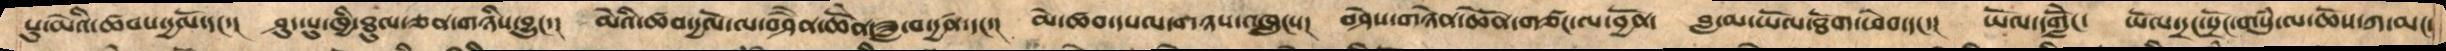པུ་མེའི་ཚབས་དྱལོ་དང་།   ཤུད་པུ་ཁྱི་ཐུལ་ཅན་གཉིས་བྱུང་།  མེའི་ཚབ་དྱལོ་ལ་བཤཻན་ཆེནོ་ཟླ་བ་དྱཚན་དང་།  མེ་ཚབ་དཔལ་གཉས་འཁྲུངས།  བཤེས་གཉེན་ཆེནོ་གཙང་ལ་བྱོན།  བླ་མ་ཡོལ་ཐོག་ཕེབ་དང་།  ཡོལ་དགླེོ།་  ཡོལ་དྲང་སྲོང་གསུཾ་ལ་ཆོས་ཀ་མང་
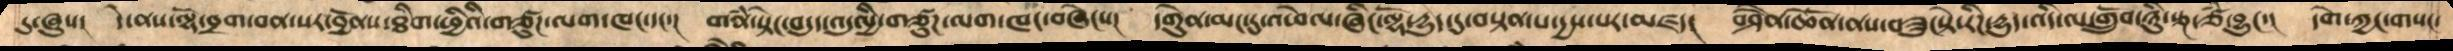དུ་ཞུས།  དེ་ནས་ལྷོ་བྲག་བན་སར་བྱོནས་ཐིག་ཕྱིའི་གཙུཌ་ལག་ཁང་དང་།   གནཾ་སྟེང་བདུད་འདུལྱི་གཙུཌ་ལག་ཁང་བཞེངས།  དགེུན་མང་དུ་འཕེལ་ཞིང་ལྷོ་དྱུད་དུ་བསྟན་པ་དྱས་པར་མཛད།  བཤཻན་ཆེནོ་ནས་བཟུང་སྟེ་རིཌ་དྱུད་འདི་ལ་གྲོུབ་ཉིུ་རྩྔ་ཙཾ་བྱུང་།  དེག་ཀྱང་གསང་
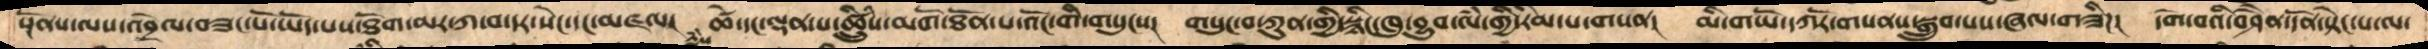སྔོནས་ལས་འབྲེལ་བཟང་པོ་ཡོད་པས་ཐོག་མར་ཀ་བ་དར་སེང་དང་མཇལ།  ཚེ་དང་ལྡན་པ་ཚྲིུཾས་མགོ་ཐོན་པ་འོང་གི་གསུངས།  གསུང་བ་ཀུན་གྱི་སྙིང་ཁུ་བྱུབ་ལཾ་གྱི་རིམ་པ་གསན།  མི་གཡོ་དཀོར་གསནས་སྒྲུབ་པས་ཞལ་གཟིཌ།  དགེ་བའི་བཤཻན་དོན་སྟེང་པ་ལ་
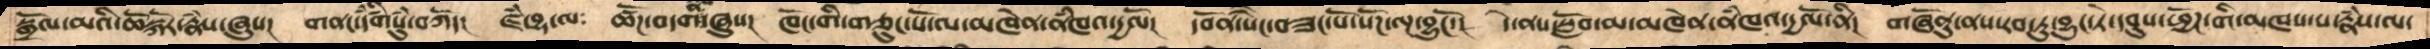སྒྲོལ་མའི་ཆོསྐོར་རྣཾས་ཞུས།  གནང་དཾཚིགསུཾ་བཀོད།  ཛཾབྷ་ལ་  ཚོཌ་བདགི་ཞུས།  ཁོང་གི་གཅུང་པོ་ལ་མཁེན་ནཾཁའ་དྱལོ།  དབོན་སཻང་བཟང་པོ་སོཌ་་ལྔ་བྱུངོ་།  དེ་ནས་སློབ་མ་མཁེན་ནཾཁའ་དྱལོ་ནི།  གཞོནུ་ནས་རབ་ཏུ་བྱུང་ཏེ་དབུས་ཕྱོཌ་གི་མཁས་པ་རྣཾས་ལ་
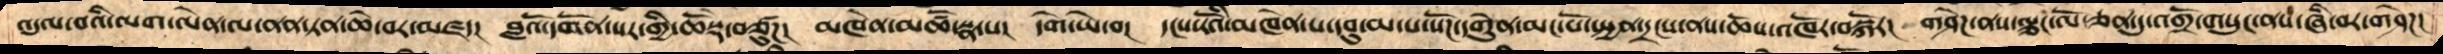འདུལ་བའི་ལག་ལེན་ལ་ནན་ཏན་ཆེ་བར་མཛད།  བླའོ་དགོན་སར་གྱི་ཆོསྡེ་བཙུཌ།  མཁེན་མཚོ་སྣ་པ། དགེ་ཡེ་བ།  དངས་རོའི་མཁེན་པ་དབུ་མ་པ་སོཌ་དགེུན་མང་པོ་སྤྱན་དྲངས་ནས་ཆོས་འཁོར་བསྐོར། གཤེཌ་ནས་ལྕང་ལོ་ཅན་དུ་འགྲོ་གསུང་ནས་ཞི་བར་གཤེཌ།
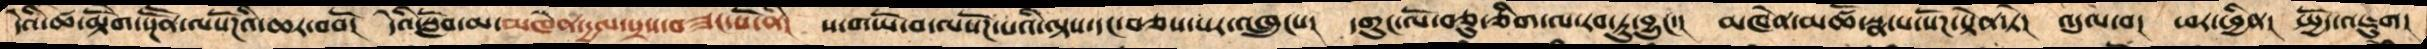དེའི་ཚེ་མྟེགོ་སྔཽན་ལསོཌའི་ཆར་བབོ།།  དེའི་སློབ་མ་མཁེན་དྱལ་སྲས་བཟང་པོ་ནི།  ས་གཡོ་བ་ལསོཌ་པའི་ལྟས་དང་བཅས་པར་འཁྲུངས།  དགུང་ལོ་བཅུ་ཅིག་ལ་རབ་ཏུ་བྱུང་།  མཁེན་མཚོ་སྣ་པ་སོཌ་སྟེན་ཏེ།  འདུལ་བ། ཕར་ཕྱིན། སྤྱོད་འཇུག།
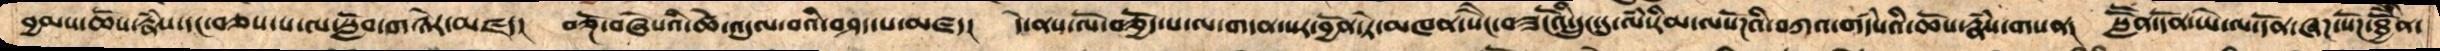བྱམས་ཆོས་རྣཾས་དང་བཅས་པ་ལ་སློབ་གཉེར་མཛད།  བཅྔོ་བཞེསའི་ཚེ་འདུལ་བའི་བཤད་པ་མཛད།  དེ་ནས་བཅྱོད་པ་ལ་གདན་སར་བྱོན་ཏེ་མཁན་སཻང་བཟངོའི་དྲུང་དུ་ལཾ་རིམ་ལསོཌ་པའི་བཀའ་གདཾསའི་ཆོས་རྣཾས་གསན།  སླཽན་དོན་ཡེ་ལ་དོན་ཞཌ་སོཌ་ཐྱེནོི་
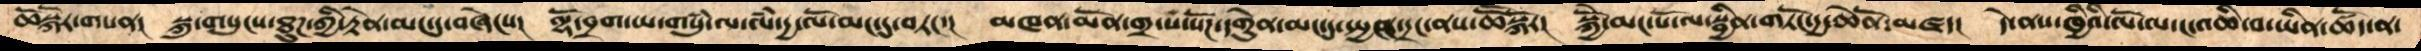ཆོསྐོར་གསན།  སྐུ་གསུངས་ཐུཌ་ཀྱི་རྟེན་མང་དུ་བཞེངས།  ལྷོ་བྲག་ཡ་གསུཾ་ལ་ལཾ་དྱ་ལོ་མང་དུ་བཏང་།  མཁན་མོན་གྲ་པ་སོཌ་དགེུན་མང་དུ་སྤྱན་དྲང་ནས་ཆོསྐོར།   སྐྱེོ་མང་པོ་ལ་སྦྱིན་གཏོང་དྱ་ཆེནོ་མཛད།  དེ་ནས་ཁྱིའི་ལོ་ལ་ང་འཆི་བ་ཡིན་ཚོད་ན་
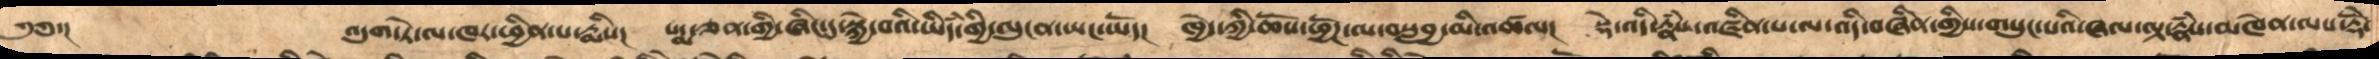༄༅་།     འདུག་ཏེ་ལ་ཁར་ཕྱིན་པ་རྨིས།  པདྨ་ཅན་གྱི་ཞིང་དུ་སྐྱེ་བའི་ཡིདཾ་གྱི་ལུངན་ཡང་ཡོད།   ཁྱེད་ཀྱི་ཆོས་ཕྱོཌ་ལ་བསླབྱ་མི་འཚལ།  སྡེ་འདི་རྣཾས་འཛིན་པ་ལ་འདི་བཞིན་གྱིས་གསུང་པའི་ཞལ་ལྟ་རྣཾས་མཁེན་ལས་རྡོེ་
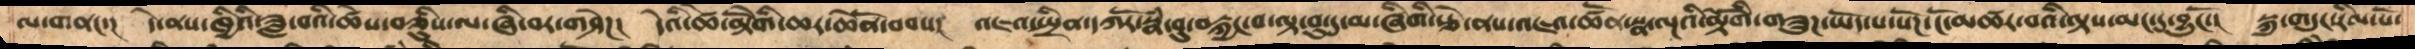ལ་གནང་།  དེ་ནས་ཁྱིའི་ཟླ་བའི་ཚེས་བཅིུས་ལ་ཞི་བར་གཤེཌ།  དེའི་ཚེ་མྟེགོི་ཆར་ཆེནོ་བབས།  འཇའ་སྤྲིན་དཀོར་སྣཾ་བུ་བསྐྱང་བ་ལྟ་བུ་དུ་མ་ཞིགི་རྩེ་ནས་འཇའ་ཚོན་སྣ་ལྔའི་མྟེགོི་གཟུཌ་ཡོད་པ་སོཌ་ངོ་མཚར་བའི་ལྟས་མང་དུ་བྱུངོ་།  སྐུ་གདུང་རིལ་པོ་
